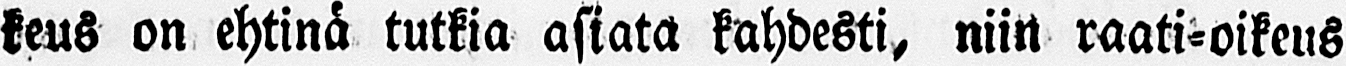keus on ehtinä tutkia asiata kahdesti, niin raati-oikeus
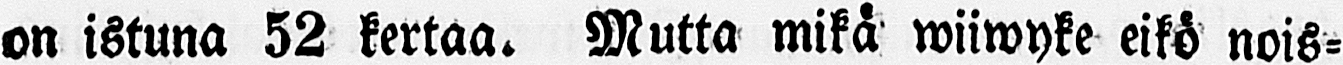on istuna 52 kertaa. Mutta mikä wiiwyke eikö nois-
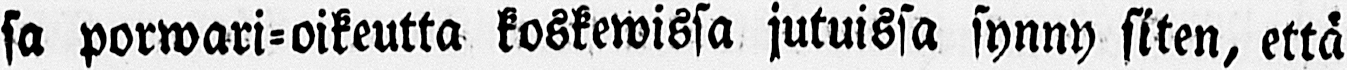sa porwari-oikeutta koskewissa jutuissa synny siten, että
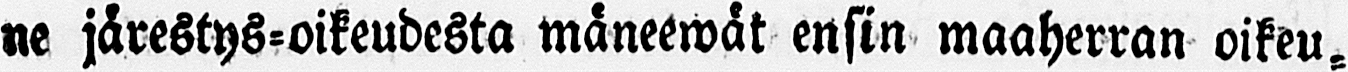ne järestys-oikeudesta mäneewät ensin maaherran oikeu-
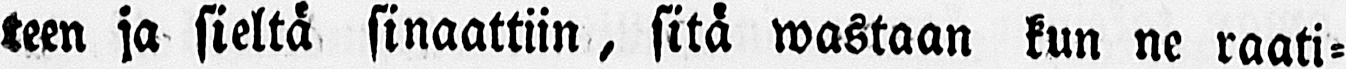teen ja sieltä sinaattiin, sitä wastaan kun ne raati-
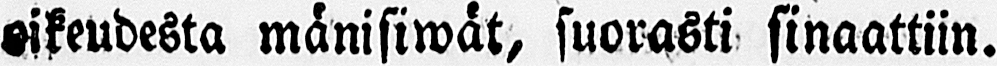oikeudesta mänisiwät, suorasti sinaattiin.
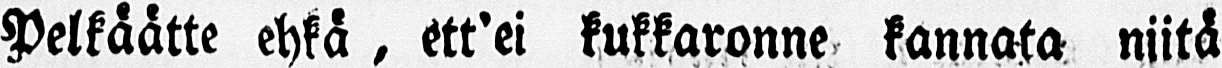Pelkäätte ehkä, ett'ei kukkaronne kannata niitä
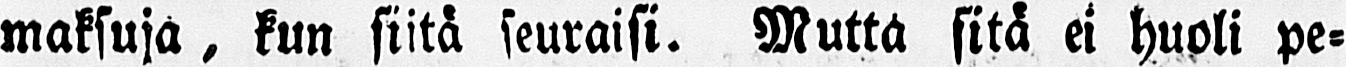maksuja, kun siitä seuraisi. Mutta sitä ei huoli pe-
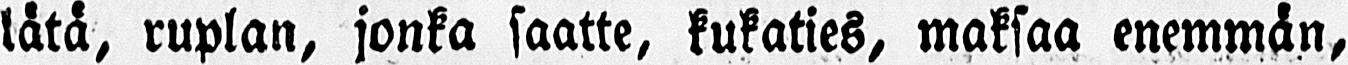lätä, ruplan, jonka saatte, kukaties, maksaa enemmän,
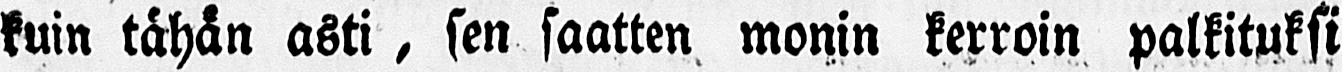kuin tähän asti, sen saatten monin kerroin palkituksi
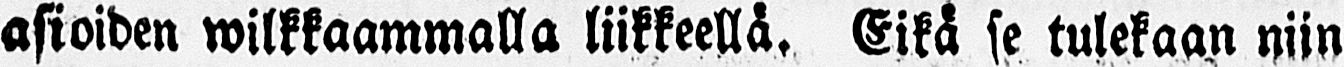asioiden wilkkaammalla liikkeellä. Eikä se tulekaan niin
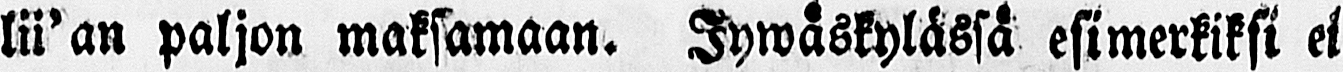lii'an paljon maksamaan. Jywäskylässä esimerkiksi ei
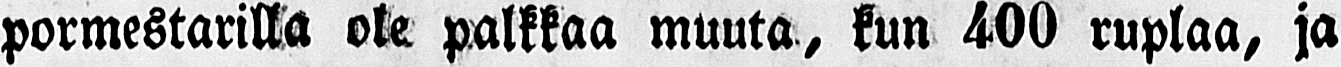pormestarilla ole palkkaa muuta, kun 400 ruplaa, ja
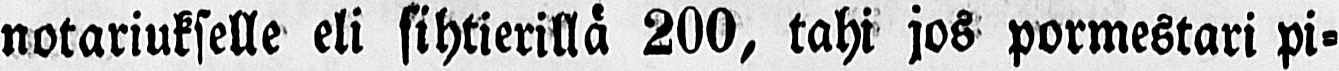notariukselle eli sihtierillä 200, tahi jos pormestari pi-
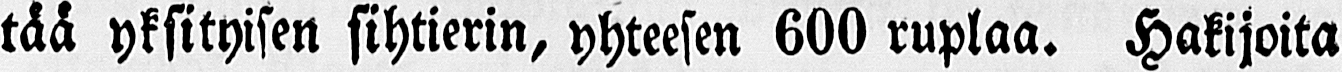tää yksityisen sihtierin, yhteesen 600 ruplaa. Hakijoita
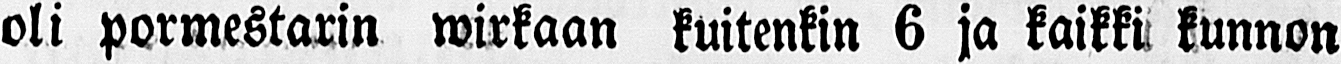oli pormestarin wirkaan kuitenkin 6 ja kaikki kunnon
